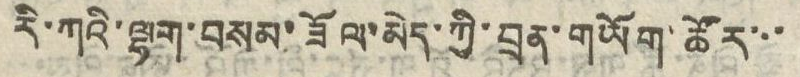རི་ཀའི་ལྷག་བསམ་ཟོལ་མེད་ཀྱི་བྲན་གཡོག་ཚོར་་་
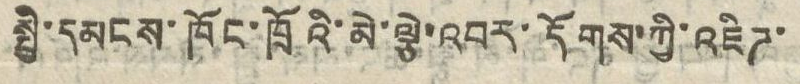སྤྱི་དམངས་ཁོང་ཁྲོའི་མེ་ལྕེ་འབར་དོགས་ཀྱི་འཇིཌ་
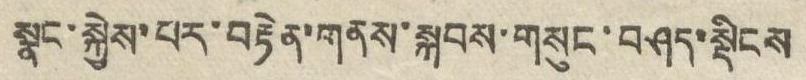སྣང་སྐྱེས་པར་བརྟེན་གནས་སྐབས་གསུང་བཤད་སྡིངས
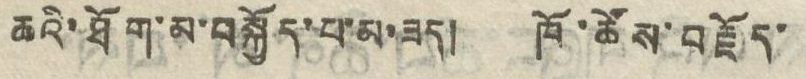ཆའི་ཐོག་མ་བསྐྱོད་པ་མ་ཟད། ཁོ་ཚོས་བརྗོད་
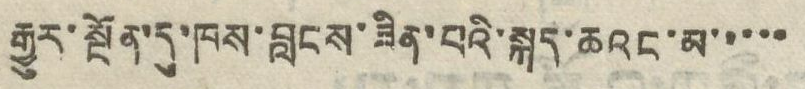རྒྱུར་སྔོན་དུ་ཁས་བླངས་ཟིན་པའི་སྐད་ཆའང་མ་་་་་
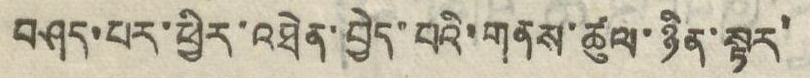བཤད་པར་ཕྱིར་འཐེན་བྱེད་པའི་གནས་ཚུལ་ཉིན་སྟར་
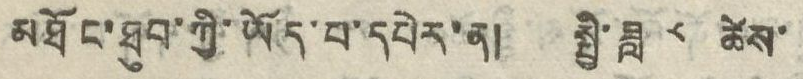མཐོང་ཐུབ་ཀྱི་ཡོད་པ་དཔེར་ན། སྤྱི་ཟླ་ ༨ ཚེས་
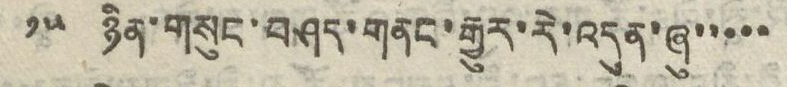༡༥ ཉིན་གསུང་བཤད་གནང་རྒྱུར་རེ་འདུན་ཞུ་་་་་
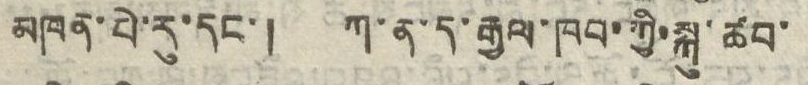མཁན་པེ་རུ་དང་། ཀ་ན་ད་རྒྱལ་ཁབ་ཀྱི་སྐུ་ཚབ་
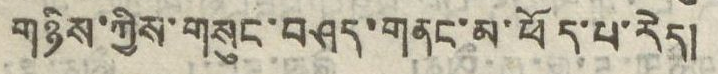གཉིས་ཀྱིས་གསུང་བཤད་གནང་མ་ཕོད་པ་རེད།
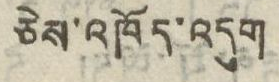ཅེས་འཁོད་འདུག
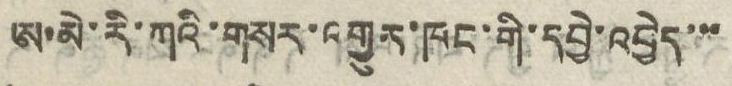ཨ་མེ་རི་ཀའི་གསར་འགྱུར་ཁང་གི་དབྱེ་འབྱེད་་་
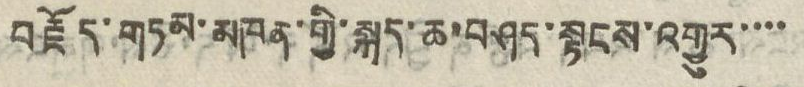བརྗོད་གཏམ་མཁན་གྱི་སྐད་ཆ་བཤད་སྟངས་འགྱུར་་་་
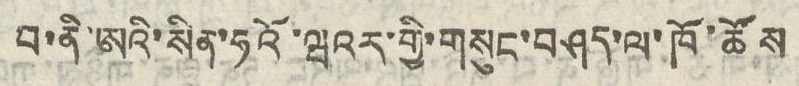བ་ནི་ཨའི་སིན་ཧའོ་ཝའར་གྱི་གསུང་བཤད་ལ་ཁོ་ཚོས
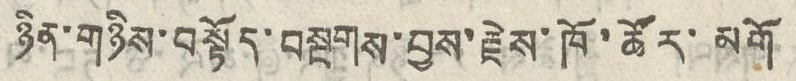ཉིན་གཉིས་བསྟོད་བསྔགས་བྱས་རྗེས་ཁོ་ཚོར་མགོ
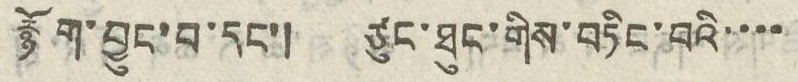རྙོག་བྱུང་བ་དང་། ཙུང་ཐུང་གིས་བཏིང་བའི་་་་
